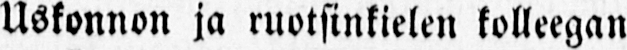Uskonnon ja ruotsinkielen kolleegan
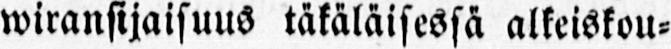wiransijaisuus täkäläisessä alkeiskou-
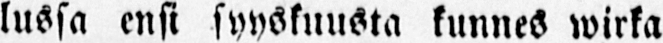lussa ensi syyskuusta kunnes wirka
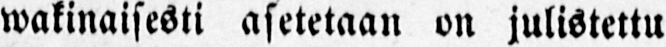wakinaisesti asetetaan on julistettu
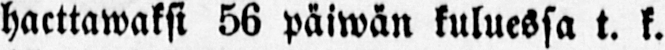haettawaksi 56 päiwän kuluessa t. k.
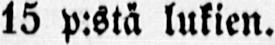15 p:stä lukien.
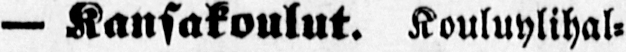— Kansakoulut. Kouluylihal-
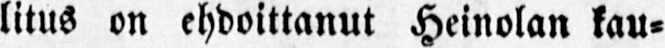litus on ehdoittanut Heinolan kau-
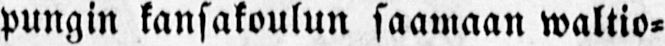pungin kansakoulun saamaan waltio-
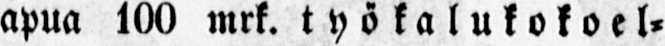apua 100 mrk. työkalukokoel-
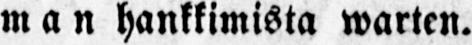man hankkimista warten.
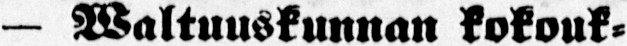— Waltuuskunnan kokouk-
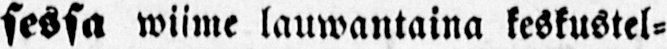sessa wiime lauwantaina keskustel-
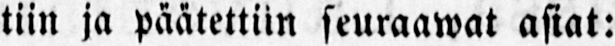tiin ja päätettiin seuraawat asiat:
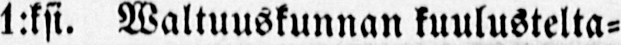1:ksi. Waltuuskunnan kuulustelta-
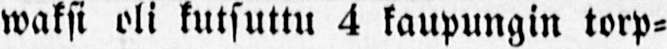waksi oli kutsuttu 4 kaupungin torp-
